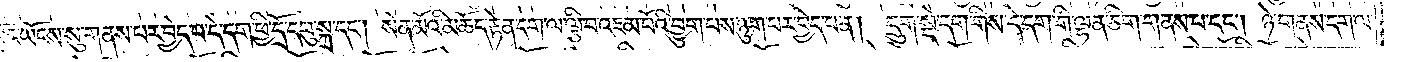སློང་ཡོངས་སུ་གནས་པར་བྱེད་པ་དེ་དག་ཕྱི་དྲོ་དབུ་སྐྲ་དང༌། སེན་མོའི་མཆོད་རྟེན་དག་ལ་ལྕི་བ་འཇམ་པོའི་བྱུག་པས་ཉུག་པར་བྱེད་པ་ན། དྲུག་སྡེ་དག་གིས་དེ་དག་གི་ལྷན་ཅིག་གནས་པ་དང༌། ཉེ་གནས་དག་ལ་
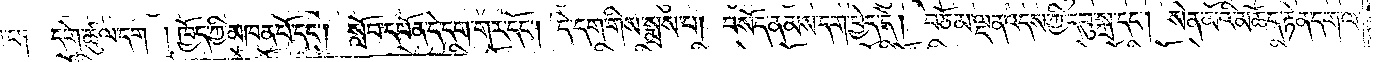པ། དགེ་ཚུལ་དག །ཁྱོད་ཀྱི་མཁན་པོ་དང༌། སློབ་དཔོན་དེ་དག་གར་དོང༌། དེ་དག་གིས་སྨྲས་པ། བསོད་ནམས་དག་བྱེད་དེ། བཅོམ་ལྡན་འདས་ཀྱི་དབུ་སྐྲ་དང༌། སེན་མོའི་མཆོད་རྟེན་དག་ལ་
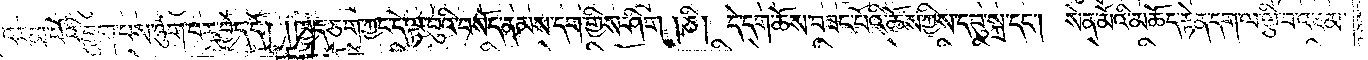ལྕི་བ་འཇམ་པོའི་བྱུག་པས་ཉུག་པར་བྱེད་དོ། །ཁྱེད་ཅག་ཀྱང་དེ་ལྟ་བུའི་བསོད་ནམས་དག་གྱིས་ཤིག །ཅི། དེ་དག་ཆོས་བཟང་པོའི་ཆོས་ཀྱིས་དབུ་སྐྲ་དང༌། སེན་མོའི་མཆོད་རྟེན་དག་ལ་ལྕི་བ་འཇམ་
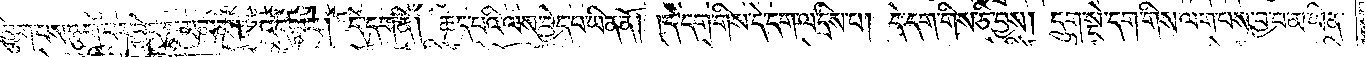པོའི་བྱུག་པས་ཉུག་པར་བྱེད་སྙམ་མམ། འདི་ལྟར། དེ་དག་ནི། ཆད་པའི་ལས་བྱེད་པ་ཡིན་ནོ། །དེ་དག་གིས་དེ་དག་ལ་དྲིས་པ། དེ་དག་གིས་ཅི་བྱས། དྲུག་སྡེ་དག་གིས་ལག་པས་བྱ་བ་མ་ཡིན་
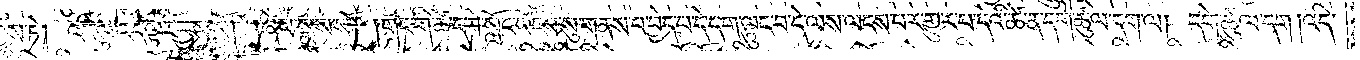པར་བྱས་ཏེ། འདི་ལྟར་འདི་ལྟར་བྱས་སོ། །ཞེས་སྨྲས་སོ། །གང་གི་ཚེ་དགེ་སློང་ཡོངས་སུ་གནས་པ་བྱེད་པ་དེ་དག་ལྟུང་བ་དེ་ལས་ལངས་པར་གྱུར་པ་དེའི་ཚེ་ན་དགེ་ཚུལ་དག་ལ། དགེ་ཚུལ་དག །འདི་
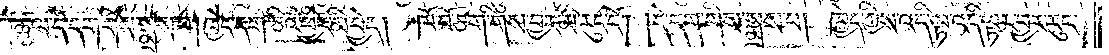དགེ་ཚུལ་དེ་དག་གིས་སྨྲས་པ། ཁྱེད་དག་ཅིའི་ཕྱིར་མི་བྱེད། ཁོ་བོ་ཅག་གིས་བྱར་མི་རུང་ངོ༌། །དེ་དག་གིས་སྨྲས་པ། ཁྱེད་ཀྱིས་འདི་ལྟ་འདི་ལྟར་བྱར་རུང་
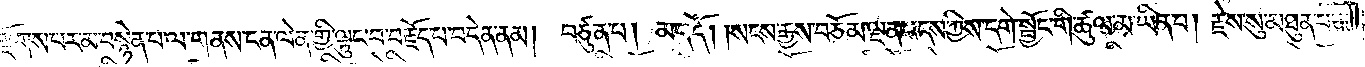རྫོགས་པར་མ་བསྙེན་པ་ལ་གནས་ངན་ལེན་གྱི་ལྟུང་བ་བརྗོད་པ་བདེན་ནམ། བཙུན་པ། མད་དོ། །སངས་རྒྱས་བཅོམ་ལྡན་འདས་ཀྱིས་དགེ་སྦྱོང་གི་ཚུལ་མ་ཡིན་པ། རྗེས་སུ་མཐུན་པ་མ་
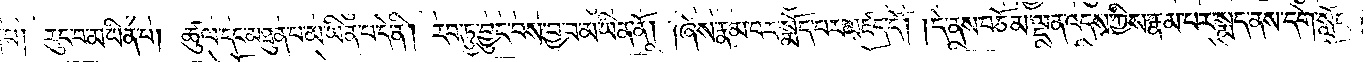པ། རུང་བ་མ་ཡིན་པ། ཚུལ་དང་མཐུན་པ་མ་ཡིན་པ་དེ་ནི། རབ་ཏུ་བྱུང་བས་བྱ་བ་མ་ཡིན་ནོ། །ཞེས་རྣམ་པར་སྨོད་པར་མཛད་དོ། །དེ་ནས་བཅོམ་ལྡན་འདས་ཀྱིས་རྣམ་པར་སྨད་ནས་དགེ་སློང་
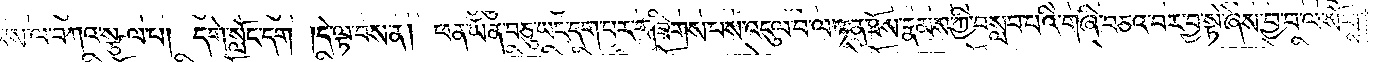རྣམས་ལ་བཀའ་སྩལ་པ། དགེ་སློང་དག །དེ་ལྟ་བས་ན། ཕན་ཡོན་བཅུ་ཡང་དག་པར་གཟིགས་པས་འདུལ་བ་ལ་ཉན་ཐོས་རྣམས་ཀྱི་བསླབ་པའི་གཞི་བཅའ་བར་བྱ་སྟེ་ཞེས་བྱ་བ་ལ་སོགས་
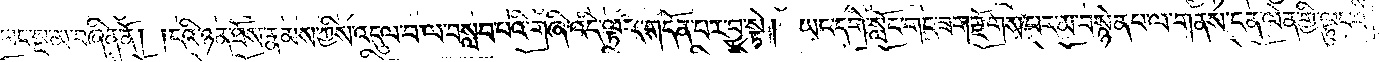པ་ཡང་སྔ་མ་བཞིན་ནོ། །ངའི་ཉན་ཐོས་རྣམས་ཀྱིས་འདུལ་བ་ལ་བསླབ་པའི་གཞི་འདི་ལྟར་གདོན་པར་བྱ་སྟེ། ཡང་དགེ་སློང་གང་ཟག་རྫོགས་པར་མ་བསྙེན་པ་ལ་གནས་ངན་ལེན་གྱི་ལྟུང་བ་
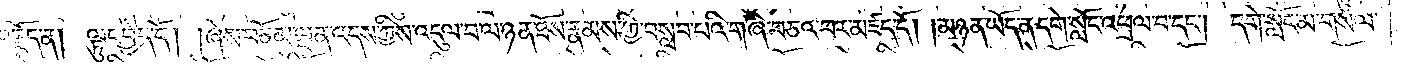བརྗོད་ན། ལྟུང་བྱེད་དོ། །ཞེས་བཅོམ་ལྡན་འདས་ཀྱིས་འདུལ་བ་ལ་ཉན་ཐོས་རྣམས་ཀྱི་བསླབ་པའི་གཞི་བཅའ་བར་མཛད་དོ། །མཉན་ཡོད་ན་དགེ་སློང་འཕྲལ་བ་དང༌། དགེ་སློང་མ་གསལ་
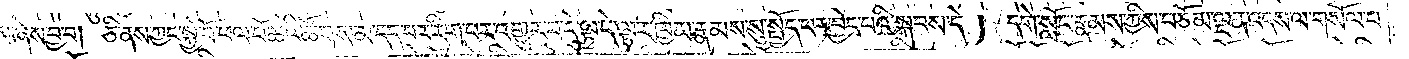མ་ཞེས་བྱ་བ། ཅི་ནས་ཀྱང་སྐྱེ་བོ་ཕལ་པོ་ཆེའི་ཚོགས་མ་དད་པར་རིག་པར་འགྱུར་བ་དེ་ལྟ་དེ་ལྟར་ཁྱིམ་རྣམས་སུ་སྤྱོད་པར་བྱེད་པའི་སྐབས་དེ། དགེ་སློང་རྣམས་ཀྱིས་བཅོམ་ལྡན་འདས་ལ་གསོལ་པ་
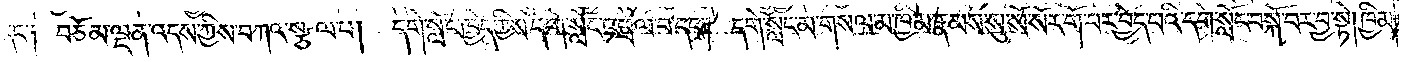དང་༑ བཅོམ་ལྡན་འདས་ཀྱིས་བཀའ་སྩལ་པ། དགེ་སློང་ཁྱེད་ཀྱིས་དགེ་སློང་འཕྲལ་བ་དང༌། དགེ་སློང་མ་གསལ་མ་ཁྱིམ་རྣམས་སུ་སོ་སོར་གོ་བར་བྱེད་པའི་དགེ་སློང་བསྐོ་བར་བྱ་སྟེ། ཁྱིམ་
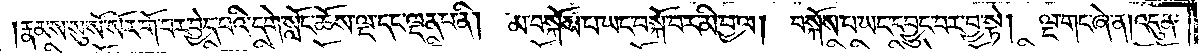རྣམས་སུ་སོ་སོར་གོ་བར་བྱེད་པའི་དགེ་སློང་ཆོས་ལྔ་དང་ལྡན་པ་ནི། མ་བསྐོས་པ་ཡང་བསྐོ་བར་མི་བྱ་ལ། བསྐོས་པ་ཡང་དབྱུང་བར་བྱ་སྟེ། ལྔ་གང་ཞེ་ན།འདུན་
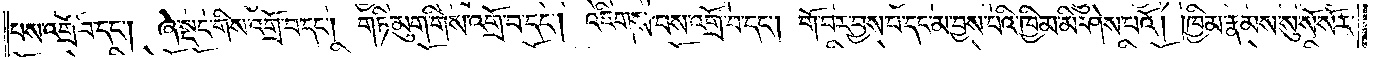པས་འགྲོ་བ་དང༌། ཞེ་སྡང་གིས་འགྲོ་བ་དང༌། གཏི་མུག་གིས་འགྲོ་བ་དང༌། འཇིགས་པས་འགྲོ་བ་དང༌། གོ་བར་བྱས་པ་དང་མ་བྱས་པའི་ཁྱིམ་མི་ཤེས་པའོ། །ཁྱིམ་རྣམས་སུ་སོ་སོར་
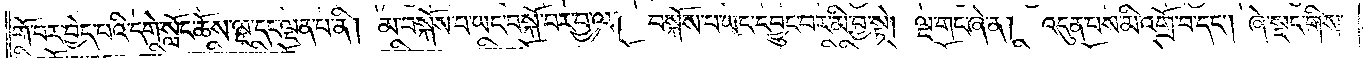གོ་བར་བྱེད་པའི་དགེ་སློང་ཆོས་ལྔ་དང་ལྡན་པ་ནི། མ་བསྐོས་པ་ཡང་བསྐོ་བར་བྱ་ལ། བསྐོས་པ་ཡང་དབྱུང་བར་མི་བྱ་སྟེ། ལྔ་གང་ཞེ་ན། འདུན་པས་མི་འགྲོ་བ་དང༌། ཞེ་སྡང་གིས་
